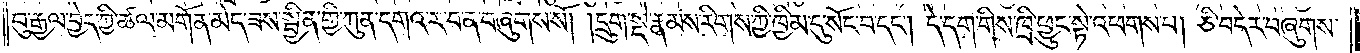བུ་རྒྱལ་བྱེད་ཀྱི་ཚལ་མགོན་མེད་ཟས་སྦྱིན་གྱི་ཀུན་དགའ་ར་ན་བ་བཞུགས་སོ། །དྲུག་སྡེ་རྣམས་རིགས་ཀྱི་ཁྱིམ་དུ་སོང་བ་དང༌། དེ་དག་གིས་ཁྲི་ཕྱུང་སྟེ་འཕགས་པ། ཅི་བདེར་བཞུགས་
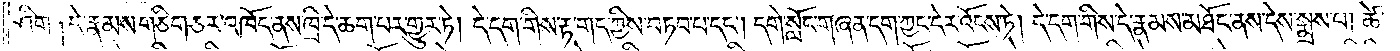ཤིག་༑དེ་རྣམས་གཅིག་ཅར་འཁོད་ནས་ཁྲི་དེ་ཆག་པར་གྱུར་ཏེ། དེ་དག་གིས་རྟ་གད་ཀྱིས་བཏབ་པ་དང༌། དགེ་སློང་གཞན་དག་ཀྱང་དེར་འོངས་ཏེ། དེ་དག་གིས་དེ་རྣམས་མཐོང་ནས་དེས་སྨྲས་པ། ཚེ་
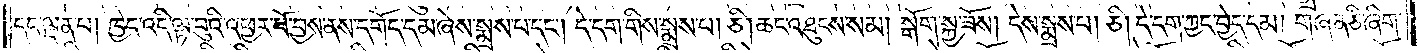དང་ལྡན་པ། ཁྱེད་འདི་ལྟ་བུའི་འཕྱར་པོ་བྱས་ནས་དགོད་དམ་ཞེས་སྨྲས་པ་དང༌། དེ་དག་གིས་སྨྲས་པ། ཅི། ཆང་འཐུངས་སམ། སྒོག་སྐྱ་ཟོས། དེས་སྨྲས་པ། ཅི། དེ་དག་ཀྱང་བྱེད་དམ། གཞན་ཅི་ཞིག་
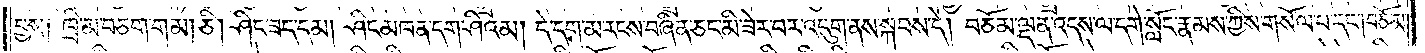བྱས༑ ཁྲི་མ་བཅག་གམ། ཅི། ཤིང་ཟད་དམ། ཤིང་མཁན་དག་ཤིའམ། དེ་དག་མ་རངས་བཞིན་ཅང་མི་ཟེར་བར་འདུག་ནས་སྐབས་དེ། བཅོམ་ལྡན་འདས་ལ་དགེ་སློང་རྣམས་ཀྱིས་གསོལ་པ་དང༌། བཅོམ་
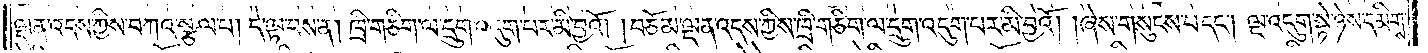ལྡན་འདས་ཀྱིས་བཀའ་སྩལ་པ། དེ་ལྟ་བས་ན། ཁྲི་གཅིག་ལ་དྲུག་འདུག་པར་མི་བྱའོ། །བཅོམ་ལྡན་འདས་ཀྱིས་ཁྲི་གཅིག་ལ་དྲུག་འདུག་པར་མི་བྱའོ། །ཞེས་གསུངས་པ་དང༌། ལྔ་འདུག་སྟེ་ཉེས་དམིགས་
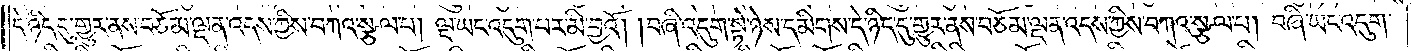དེ་ཉིད་དུ་གྱུར་ནས་བཅོམ་ལྡན་འདས་ཀྱིས་བཀའ་སྩལ་པ། ལྔ་ཡང་འདུག་པར་མི་བྱའོ། །བཞི་འདུག་སྟེ་ཉེས་དམིགས་དེ་ཉིད་དུ་གྱུར་ནས་བཅོམ་ལྡན་འདས་ཀྱིས་བཀའ་སྩལ་པ། བཞི་ཡང་འདུག་
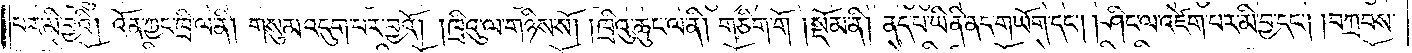པར་མི་བྱའི། འོན་ཀྱང་ཁྲི་ལ་ནི། གསུམ་འདུག་པར་བྱའོ། །ཁྲིའུ་ལ་གཉིས་སོ། །ཁྲིའུ་ཆུང་ལ་ནི། གཅིག་གོ །སྡོམ་ནི། ནད་པ་ཡི་ནི་ནད་གཡོག་དང༌། །ཤིང་ལ་འཛེག་པར་མི་བྱ་དང༌། །བཀྲབས་
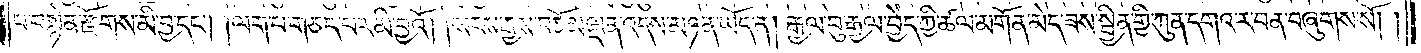པ་བསྙེན་རྫོགས་མི་བྱ་དང༌། །ལག་པ་གཅད་པར་མི་བྱའོ། །སངས་རྒྱས་བཅོམ་ལྡན་འདས་མཉན་ཡོད་ན། རྒྱལ་བུ་རྒྱལ་བྱེད་ཀྱི་ཚལ་མགོན་མེད་ཟས་སྦྱིན་གྱི་ཀུན་དགའ་ར་བ་ན་བཞུགས་སོ། །
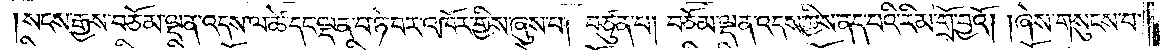སངས་རྒྱས་བཅོམ་ལྡན་འདས་ལ་ཚེ་དང་ལྡན་པ་ཉེ་བར་འཁོར་གྱིས་ཞུས་པ།  བཙུན་པ། བཅོམ་ལྡན་འདས་ཀྱིས་ནད་པའི་རིམ་གྲོ་བྱའོ། །ཞེས་གསུངས་པ་
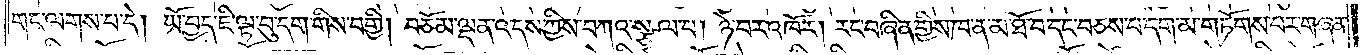གང་ལགས་པ་དེ། ཡོ་བྱད་ཇི་ལྟ་བུ་དག་གིས་བགྱི། བཅོམ་ལྡན་འདས་ཀྱིས་བཀའ་སྩལ་པ། ཉེ་བར་འཁོར། རང་བཞིན་གྱིས་ཁ་ན་མ་ཐོ་བ་དང་བཅས་པ་དག་མ་གཏོགས་པར་གཞན་
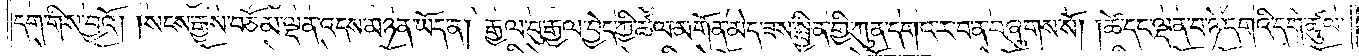དག་གིས་བྱའོ། །སངས་རྒྱས་བཅོམ་ལྡན་འདས་མཉན་ཡོད་ན། རྒྱལ་བུ་རྒྱལ་བྱེད་ཀྱི་ཚལ་མགོན་མེད་ཟས་སྦྱིན་གྱི་ཀུན་དགའ་ར་བ་ན་བཞུགས་སོ། །ཚེ་དང་ལྡན་པ་ཉེ་དགའི་དགེ་ཚུལ་
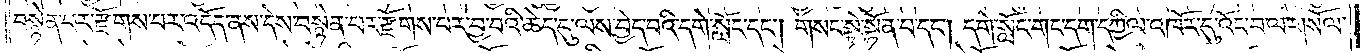བསྙེན་པར་རྫོགས་པར་འདོད་ནས་དེས་བསྙེན་པར་རྫོགས་པར་བྱ་བའི་ཆེད་དུ་ལས་བྱེད་པའི་དགེ་སློང་དང༌། གསང་སྟེ་སྟོན་པ་དང༌། དགེ་སློང་གང་དག་དཀྱིལ་འཁོར་དུ་འོང་བ་ལ་གསོལ་
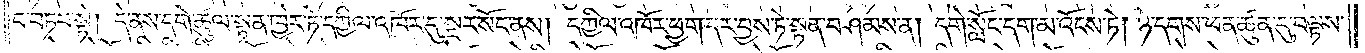བ་བཏབ་སྟེ། དེ་ནས་དགེ་ཚུལ་སྟན་ཁྱེར་ཏེ་དཀྱིལ་འཁོར་དུ་སྔར་སོང་ནས། དཀྱིལ་འཁོར་ཕྱག་དར་བྱས་ཏེ་སྟན་བཤམས་ན། དགེ་སློང་དག་མ་འོངས་ཏེ། ཉེ་དགས་ཕན་ཚུན་དུ་བལྟས་
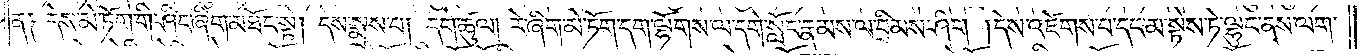ན༑ དེས་མེ་ཏོག་གི་ཤིང་ཞིག་མཐོང་སྟེ། དེས་སྨྲས་པ། དགེ་ཚུལ། རེ་ཞིག་མེ་ཏོག་དག་ལྷོགས་ལ་དགེ་སློང་རྣམས་ལ་བྲིམས་ཤིག །དེས་འཛེགས་པ་དང་མ་སྟེས་ཏེ་ལྷུང་ནས་ལག་
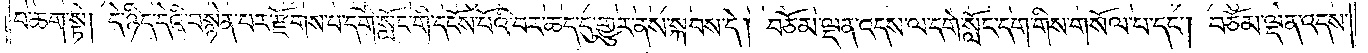པ་ཆག་སྟེ། དེ་ཉིད་དེའི་བསྙེན་པར་རྫོགས་པ་དགེ་སློང་གི་དངོས་པོའི་བར་ཆད་དུ་གྱུར་ནས་སྐབས་དེ། བཅོམ་ལྡན་འདས་ལ་དགེ་སློང་དག་གིས་གསོལ་པ་དང༌། བཅོམ་ལྡན་འདས་
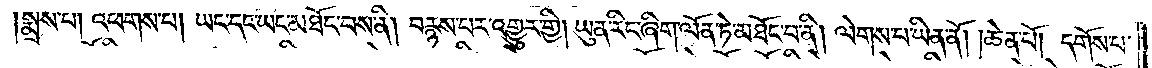སྨྲས་པ། འཕགས་པ། ཡང་དང་ཡང་མཐོང་བས་ནི། བརྙས་པར་འགྱུར་གྱི། ཡུན་རིང་ཞིག་ལོན་ཏེ་མཐོང་བ་ནི། ལེགས་པ་ཡིན་ནོ། །ཆེན་པོ། དགོས་པ་
